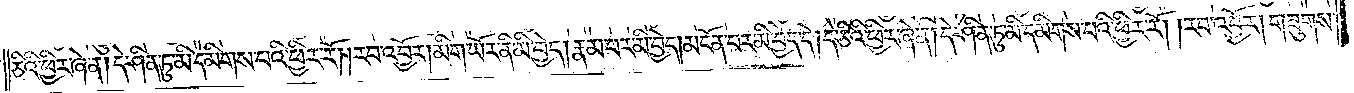ཅིའི་ཕྱིར་ཞེ་ན། དེ་ཤིན་ཏུ་མི་དམིགས་པའི་ཕྱིར་རོ། །རབ་འབྱོར། མིག་ཡོར་ནི་མི་བྱེད། རྣམ་པར་མི་བྱེད། མངོན་པར་མི་བྱེད་དེ། དེ་ཅིའི་ཕྱིར་ཞེ་ན། དེ་ཤིན་ཏུ་མི་དམིགས་པའི་ཕྱིར་རོ། །རབ་འབྱོར། གཟུགས་
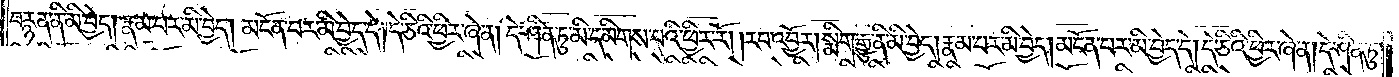བརྙན་ནི་མི་བྱེད། རྣམ་པར་མི་བྱེད། མངོན་པར་མི་བྱེད་དེ། དེ་ཅིའི་ཕྱི་ར་ཞེ་ན། དེ་ཤིན་ཏུ་མི་དམིགས་པའི་ཕྱིར་རོ། །རབ་འབྱོར། སྨིག་རྒྱུ་ནི་མི་བྱེད། རྣམ་པར་མི་བྱེད། མངོན་པར་མི་བྱེད་དེ། དེ་ཅིའི་ཕྱིར་ཞེ་ན། དེ་ཤིན་ཏུ་
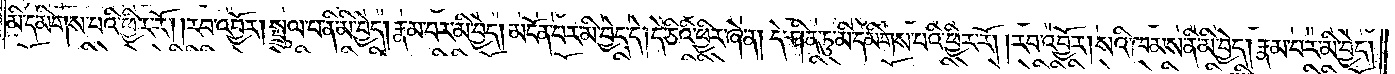མི་དམིགས་པའི་ཕྱིར་རོ། །རབ་འབྱོར། སྤྲུལ་པ་ནི་མི་བྱེད། རྣམ་པར་མི་བྱེད། མངོན་པར་མི་བྱེད་དེ། དེ་ཅིའི་ཕྱིར་ཞེ་ན། དེ་ཤིན་ཏུ་མི་དམིགས་པའི་ཕྱིར་རོ། །རབ་འབྱོར། སའི་ཁམས་ནི་མི་བྱེད། རྣམ་པར་མི་བྱེད།
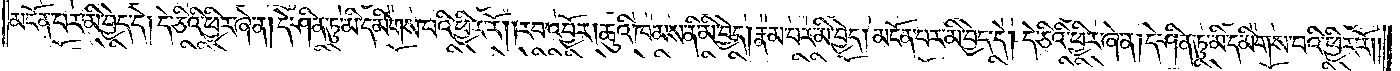མངོན་པར་མི་བྱེད་དེ། དེ་ཅིའི་ཕྱིར་ཞེ་ན། དེ་ཤིན་ཏུ་མི་དམིགས་པའི་ཕྱིར་རོ། །རབ་འབྱོར། ཆུའི་ཁམས་ནི་མི་བྱེད། རྣམ་པར་མི་བྱེད། མངོན་པར་མི་བྱེད་དེ། དེ་ཅིའི་ཕྱིར་ཞེ་ན། དེ་ཤིན་ཏུ་མི་དམིགས་པའི་ཕྱིར་རོ།
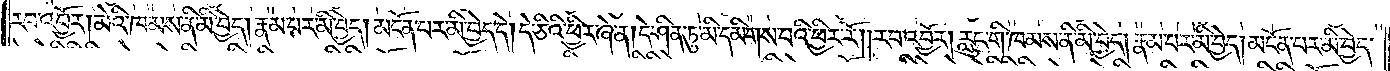རབ་འབྱོར། མེའི་ཁམས་ནི་མི་བྱེད། རྣམ་པར་མི་བྱེད། མངོན་པར་མི་བྱེད་དེ། དེ་ཅིའི་ཕྱིར་ཞེ་ན། དེ་ཤིན་ཏུ་མི་དམིགས་པའི་ཕྱིར་རོ། །རབ་འབྱོར། རླུང་གི་ཁམས་ནི་མི་བྱེད། རྣམ་པར་མི་བྱེད། མངོན་པར་མི་བྱེད་
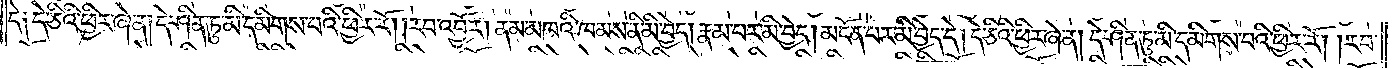དེ། དེ་ཅིའི་ཕྱིར་ཞེ་ན། དེ་ཤིན་ཏུ་མི་དམིགས་པའི་ཕྱིར་རོ། །རབ་འབྱོར། ནམ་མཁའི་ཁམས་ནི་མི་བྱེད། རྣམ་པར་མི་བྱེད། མངོན་པར་མི་བྱེད་དེ། དེ་ཅིའི་ཕྱིར་ཞེ་ན། དེ་ཤིན་ཏུ་མི་དམིགས་པའི་ཕྱིར་རོ། །རབ་
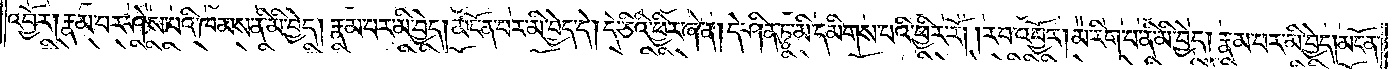འབྱོར། རྣམ་པར་ཤེས་པའི་ཁམས་ནི་མི་བྱེད། རྣམ་པར་མི་བྱེད། མངོན་པར་མི་བྱེད་དེ། དེ་ཅིའི་ཕྱིར་ཞེ་ན། དེ་ཤིན་ཏུ་མི་དམིགས་པའི་ཕྱིར་རོ། །རབ་འབྱོར། མ་རིག་པ་ནི་མི་བྱེད། རྣམ་པར་མི་བྱེད། མངོན་
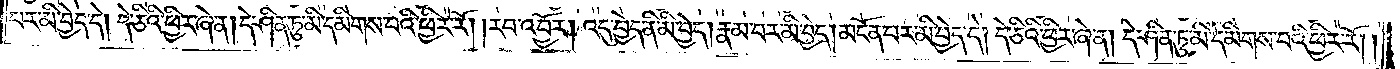པར་མི་བྱེད་དེ། དེ་ཅིའི་ཕྱིར་ཞེ་ན། དེ་ཤིན་ཏུ་མི་དམིགས་པའི་ཕྱིར་རོ། །རབ་འབྱོར། འདུ་བྱེད་ནི་མི་བྱེད། རྣམ་པར་མི་བྱེད། མངོན་པར་མི་བྱེད་དེ། དེ་ཅིའི་ཕྱིར་ཞེ་ན། དེ་ཤིན་ཏུ་མི་དམིགས་པའི་ཕྱིར་རོ། །
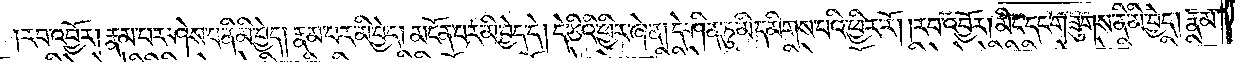རབ་འབྱོར། རྣམ་པར་ཤེས་པ་ནི་མི་བྱེད། རྣམ་པར་མི་བྱེད། མངོན་པར་མི་བྱེད་དེ། དེ་ཅིའི་ཕྱིར་ཞེ་ན། དེ་ཤིན་ཏུ་མི་དམིགས་པའི་ཕྱིར་རོ། །རབ་འབྱོར། མིང་དང་གཟུགས་ནི་མི་བྱེད། རྣམ་
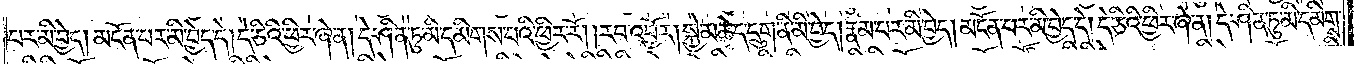པར་མི་བྱེད། མངོན་པར་མི་བྱེད་དེ། དེ་ཅིའི་ཕྱིར་ཞེ་ན། དེ་ཤིན་ཏུ་མི་དམིགས་པའི་ཕྱིར་རོ། །རབ་འབྱོར། སྐྱེ་མཆེད་དྲུག་ནི་མི་བྱེད། རྣམ་པར་མི་བྱེད། མངོན་པར་མི་བྱེད་དེ། དེ་ཅིའི་ཕྱིར་ཞེ་ན། དེ་ཤིན་ཏུ་མི་དམིགས་
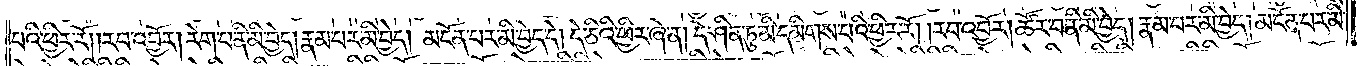པའི་ཕྱིར་རོ། །རབ་འབྱོར། རེག་པ་ནི་མི་བྱེད། རྣམ་པར་མི་བྱེད། མངོན་པར་མི་བྱེད་དེ། དེ་ཅིའི་ཕྱིར་ཞེ་ན། དེ་ཤིན་ཏུ་མི་དམིགས་པའི་ཕྱིར་རོ། །རབ་འབྱོར། ཚོར་བ་ནི་མི་བྱེད། རྣམ་པར་མི་བྱེད། མངོན་པར་མི་
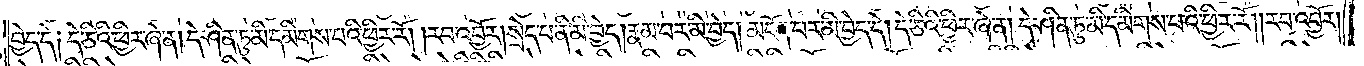བྱེད་དེ། དེ་ཅིའི་ཕྱིར་ཞེ་ན། དེ་ཤིན་ཏུ་མི་དམིགས་པའི་ཕྱིར་རོ། །རབ་འབྱོར། སྲེད་པ་ནི་མི་བྱེད། རྣམ་པར་མི་བྱེད། མངོན་པར་མི་བྱེད་དེ། དེ་ཅིའི་ཕྱིར་ཞེ་ན། དེ་ཤིན་ཏུ་མི་དམིགས་པའི་ཕྱིར་རོ། །རབ་འབྱོར།
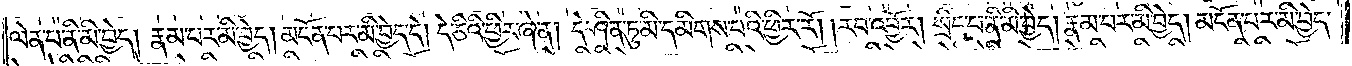ལེན་པ་ནི་མི་བྱེད། རྣམ་པར་མི་བྱེད། མངོན་པར་མི་བྱེད་དེ། དེ་ཅིའི་ཕྱིར་ཞེ་ན། དེ་ཤིན་ཏུ་མི་དམིགས་པའི་ཕྱིར་རོ། །རབ་འབྱོར། སྲིད་པ་ནི་མི་བྱེད། རྣམ་པར་མི་བྱེད། མངོན་པར་མི་བྱེད་
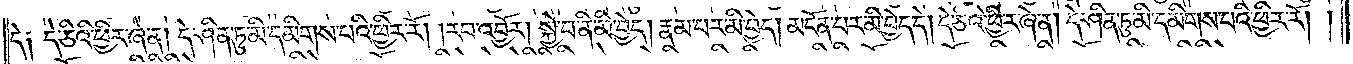དེ། དེ་ཅིའི་ཕྱིར་ཞེ་ན། དེ་ཤིན་ཏུ་མི་དམིགས་པའི་ཕྱིར་རོ། །རབ་འབྱོར། སྐྱེ་བ་ནི་མི་བྱེད། རྣམ་པར་མི་བྱེད། མངོན་པར་མི་བྱེད་དེ། དེ་ཅིའི་ཕྱིར་ཞེ་ན། དེ་ཤིན་ཏུ་མི་དམིགས་པའི་ཕྱིར་རོ། །
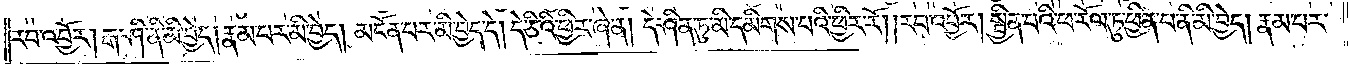རབ་འབྱོར། རྒ་ཤི་ནི་མི་བྱེད། རྣམ་པར་མི་བྱེད། མངོན་པར་མི་བྱེད་དེ། དེ་ཅིའི་ཕྱིར་ཞེ་ན། དེ་ཤིན་ཏུ་མི་དམིགས་པའི་ཕྱིར་རོ། །རབ་འབྱོར། སྦྱིན་པའི་ཕ་རོལ་ཏུ་ཕྱིན་པ་ནི་མི་བྱེད། རྣམ་པར་
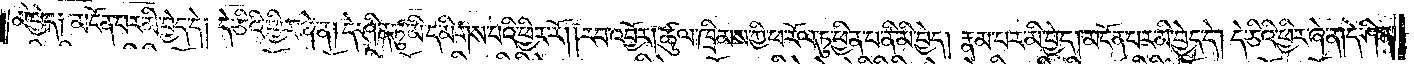མི་བྱེད། མངོན་པར་མི་བྱེད་དེ། དེ་ཅིའི་ཕྱིར་ཞེ་ན། དེ་ཤིན་ཏུ་མི་དམིགས་པའི་ཕྱིར་རོ། །རབ་འབྱོར། ཚུལ་ཁྲིམས་ཀྱི་ཕ་རོལ་ཏུ་ཕྱིན་པ་ནི་མི་བྱེད། རྣམ་པར་མི་བྱེད། མངོན་པར་མི་བྱེད་དེ། དེ་ཅིའི་ཕྱིར་ཞེ་ན། དེ་ཤིན་
